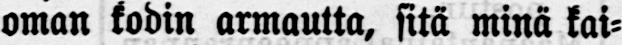oman kodin armautta, sitä minä kai-
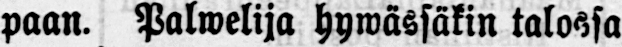paan. Palwelija hywässäkin talossa
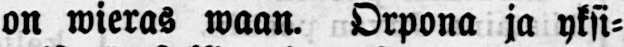on wieras waan. Orpona ja yksi-
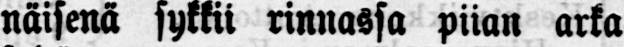näisenä sykkii rinnassa piian arka
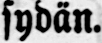sydän.
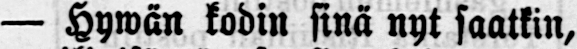— Hywän kodin sinä nyt saatkin,
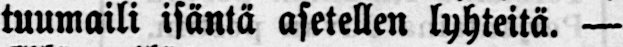tuumaili isäntä asetellen lyhteitä. —
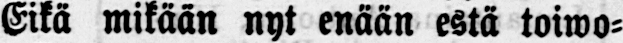Eikä mikään nyt enään estä toiwo-
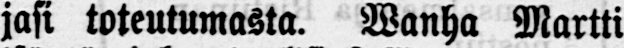jasi toteutumasta. Wanha Martti
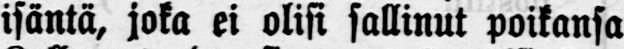isäntä, joka ei olisi sallinut poikansa
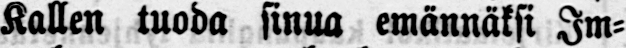Kallen tuoda sinua emännäksi Im-
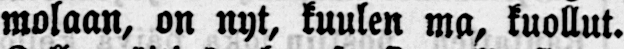molaan, on nyt, kuulen ma, kuollut.
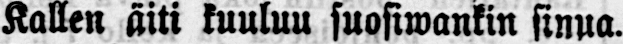Kallen äiti kuuluu suosiwankin sinua.
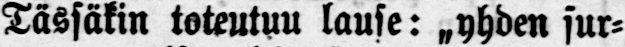Tässäkin toteutuu lause: „yhden sur-
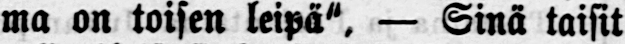ma on toisen leipä". — Sinä taisit
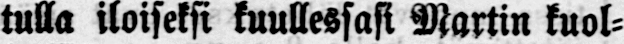tulla iloiseksi kuullessasi Martin kuol-
